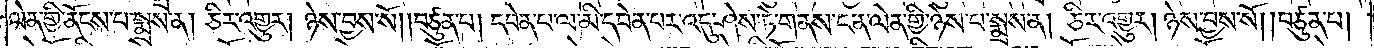ལེན་གྱི་ནོངས་པ་སྨྲས་ན། ཅིར་འགྱུར། ཉེས་བྱས་སོ། །བཙུན་པ། དབེན་པ་ལ་མི་དབེན་པར་འདུ་ཤེས་ཏེ་གནས་ངན་ལེན་གྱི་ཉེས་པ་སྨྲས་ན། ཅིར་འགྱུར། ཉེས་བྱས་སོ། །བཙུན་པ།
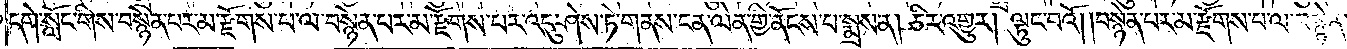དགེ་སློང་གིས་བསྙེན་པར་མ་རྫོགས་པ་ལ་བསྙེན་པར་མ་རྫོགས་པར་འདུ་ཤེས་ཏེ་གནས་ངན་ལེན་གྱི་ནོངས་པ་སྨྲས་ན། ཅིར་འགྱུར། ལྟུང་བའོ། །བསྙེན་པར་མ་རྫོགས་པ་ལ་བསྙེན་
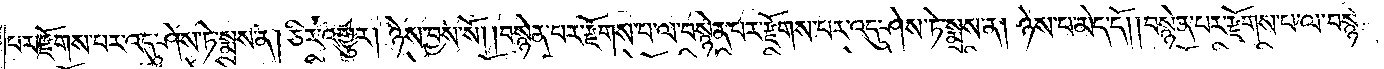པར་རྫོགས་པར་འདུ་ཤེས་ཏེ་སྨྲས་ན། ཅིར་འགྱུར། ཉེས་བྱས་སོ། །བསྙེན་པར་རྫོགས་པ་ལ་བསྙེན་པར་རྫོགས་པར་འདུ་ཤེས་ཏེ་སྨྲས་ན། ཉེས་པ་མེད་དོ། །བསྙེན་པར་རྫོགས་པ་ལ་བསྙེན་
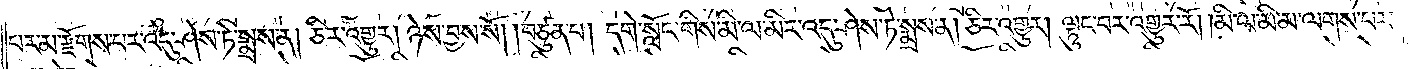པར་མ་རྫོགས་པར་འདུ་ཤེས་ཏེ་སྨྲས་ན། ཅིར་འགྱུར། ཉེས་བྱས་སོ། །བཙུན་པ། དགེ་སློང་གིས་མི་ལ་མིར་འདུ་ཤེས་ཏེ་སྨྲས་ན། ཅིར་འགྱུར། ལྟུང་བར་འགྱུར་རོ། །མི་ལ་མི་མ་ལགས་པར་
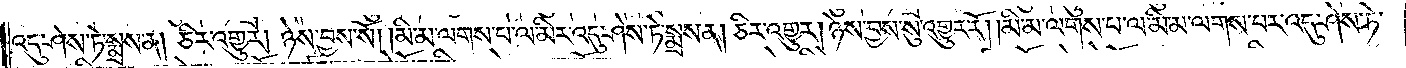འདུ་ཤེས་ཏེ་སྨྲས་ན། ཅིར་འགྱུར། ཉེས་བྱས་སོ། །མི་མ་ལགས་པ་ལ་མིར་འདུ་ཤེས་ཏེ་སྨྲས་ན། ཅིར་འགྱུར། ཉེས་བྱས་སུ་འགྱུར་རོ། །མི་མ་ལགས་པ་ལ་མི་མ་ལགས་པར་འདུ་ཤེས་ཏེ་
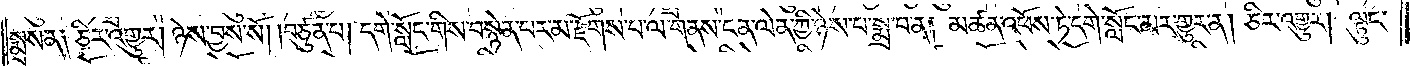སྨྲས་ན། ཅིར་འགྱུར། ཉེས་བྱས་སོ། །བཙུན་པ། དགེ་སློང་གིས་བསྙེན་པར་མ་རྫོགས་པ་ལ་གནས་ངན་ལེན་ཀྱི་ཉེས་པ་སྨྲ་བ་ན། མཚན་འཕོས་ཏེ་དགེ་སློང་མར་གྱུར་ན། ཅིར་འགྱུར། ལྟུང་
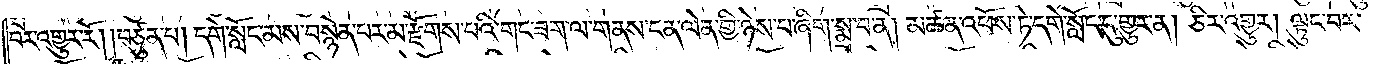བར་འགྱུར་རོ། །བཙུན་པ། དགེ་སློང་མས་བསྙེན་པར་མ་རྫོགས་པའི་གང་ཟག་ལ་གནས་ངན་ལེན་གྱི་ཉེས་པ་ཞིག་སྨྲ་བ་ན། མཚན་འཕོས་ཏེ་དགེ་སློང་དུ་གྱུར་ན། ཅིར་འགྱུར། ལྟུང་བར་
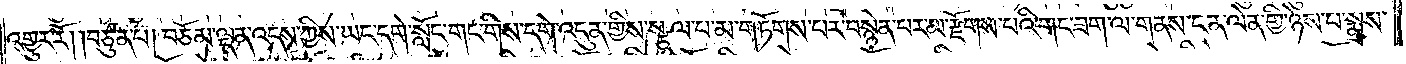འགྱུར་རོ། །བཙུན་པ། བཅོམ་ལྡན་འདས་ཀྱིས་ཡང་དགེ་སློང་གང་གིས་དགེ་འདུན་གྱིས་སྩལ་པ་མ་གཏོགས་པར་བསྙེན་པར་མ་རྫོགས་པའི་གང་ཟག་ལ་གནས་ངན་ལེན་གྱི་ཉེས་པ་སྨྲས་
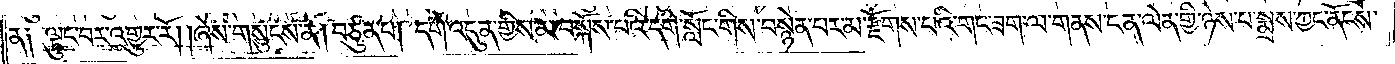ན༑ ལྟུང་བར་འགྱུར་རོ། །ཞེས་གསུངས་ན། བཙུན་པ། དགེ་འདུན་གྱིས་མ་བསྐོས་པའི་དགེ་སློང་གིས་བསྙེན་པར་མ་རྫོགས་པའི་གང་ཟག་ལ་གནས་ངན་ལེན་གྱི་ཉེས་པ་སྨྲས་ཀྱང་ནོངས་
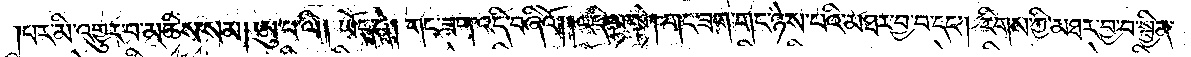།པར་མི་འགྱུར་བ་མཆིས་སམ། ཨུ་པ་ལི། ཡོད་དེ། གང་ཟག་འདི་བཞིའོ། །འདི་ལྟ་སྟེ། གང་ཟག་གང་ཉེས་པའི་མཐར་བྱ་བ་དང༌། རིགས་ཀྱི་མཐར་བྱ་བ་སྦྱིན་
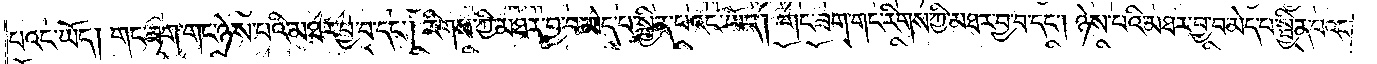པའང་ཡོད། གང་ཟག་གང་ཉེས་པའི་མཐར་བྱ་བ་དང༌། རིགས་ཀྱི་མཐར་བྱ་བ་མེད་པ་སྦྱིན་པའང་ཡོད། གང་ཟག་གང་རིགས་ཀྱི་མཐར་བྱ་བ་དང༌། ཉེས་པའི་མཐར་བྱ་བ་མེད་པ་སྦྱིན་པའང་
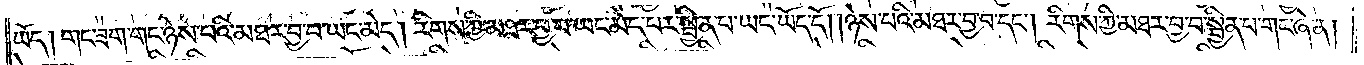ཡོད། གང་ཟག་གང་ཉེས་པའི་མཐར་བྱ་བ་ཡང་མེད། རིགས་ཀྱི་མཐར་བྱ་བ་ཡང་མེད་པར་སྦྱིན་པ་ཡང་ཡོད་དོ། །ཉེས་པའི་མཐར་བྱ་བ་དང༌། རིགས་ཀྱི་མཐར་བྱ་བ་སྦྱིན་པ་གང་ཞེ་ན།
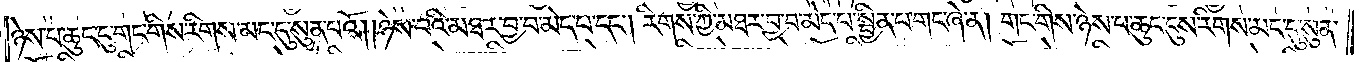ཉེས་པ་ཆུང་ངུ་གང་གིས་རིགས་མང་དུ་སུན་པའོ། །ཉེས་པའི་མཐར་བྱ་བ་མེད་པ་དང༌། རིགས་ཀྱི་མཐར་བྱ་བ་མེད་པ་སྦྱིན་པ་གང་ཞེ་ན། གང་གིས་ཉེས་པ་ཆུང་ངུས་རིགས་མང་དུ་སུན་
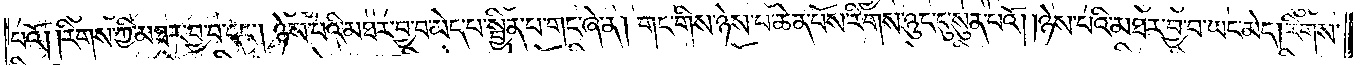པའོ། །རིགས་ཀྱི་མཐར་བྱ་བ་དང༌། ཉེས་པའི་མཐར་བྱ་བ་མེད་པ་སྦྱིན་པ་གང་ཞེ་ན། གང་གིས་ཉེས་པ་ཆེན་པོས་རིགས་ཉུང་ངུ་སུན་པའོ། །ཉེས་པའི་མཐར་བྱ་བ་ཡང་མེད། རིགས་
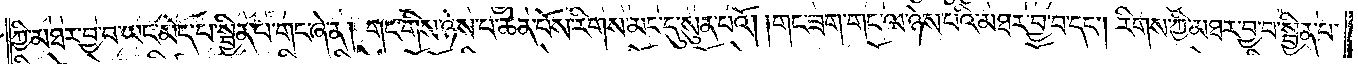ཀྱི་མཐར་བྱ་བ་ཡང་མེད་པ་སྦྱིན་པ་གང་ཞེ་ན། གང་གིས་ཉེས་པ་ཆེན་པོས་རིགས་མང་དུ་སུན་པའོ། །གང་ཟག་གང་ལ་ཉེས་པའི་མཐར་བྱ་བ་དང༌། རིགས་ཀྱི་མཐར་བྱ་བ་སྦྱིན་པ་
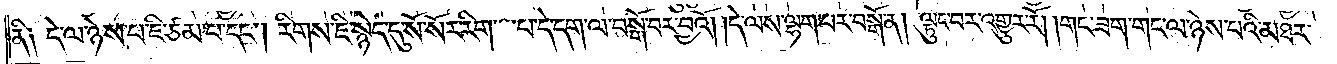ནི༑ དེ་ལ་ཉེས་པ་ཇི་ཙམ་པ་དང༌། རིགས་ཇི་སྙེད་དུ་སོ་སོར་རིག་པ་དེ་དག་ལ་བསྒོ་བར་བྱའོ། །དེ་ལས་ལྷག་པར་བསྒོ་ན། ལྟུང་བར་འགྱུར་རོ། །གང་ཟག་གང་ལ་ཉེས་པའི་མཐར་
